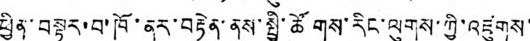ཕྱིན་བསྟར་བ་ཁོ་ནར་བརྟེན་ནས་སྤྱི་ཚོགས་རིང་ལུགས་ཀྱི་འཛུགས་
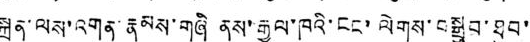སྐྲུན་ལས་འགན་རྣམས་གཞི ནས་རྒྱལ་ཁའི་ངང་ལེགས་བསྒྲུབ་ཐུབ་
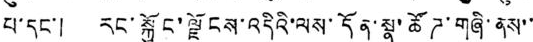པ་དང་། རང་སྐྱོང་ལྗོངས་འདིའི་ལས་དོན་སྣ་ཚོཊ་གཞི་ནས་་
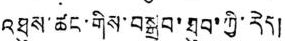འཐུས་ཚང་གིས་བསྒྲུབ་ཐུབ་ཀྱི་རེད།
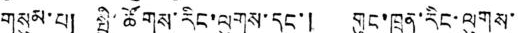གསུམ་པ། སྤྱི་ཚོགས་རིང་ལུགས་དང་། གུང་ཁྲན་རིང་ལུགས་
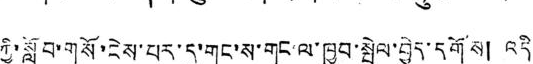ཀྱི་སློབ་གསོ་ངེས་པར་དུ་གང་ས་གང་ལ་ཁྱབ་སྤེལ་བྱེད་དགོས། འདི
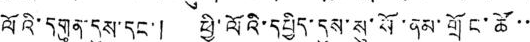ལོའི་དགུན་དུས་དང་། ཕྱི་ལོའི་དཔྱིད་དུས་སུ་སོ་ནམ་གྲོང་ཚོ་་
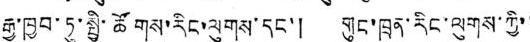རྒྱ་ཁྱབ་ཏུ་སྤྱི་ཚོགས་རིང་ལུགས་དང་། གུང་ཁྲན་རིང་ལུགས་ཀྱི་་
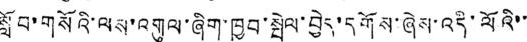སློབ་གསོའི་ལས་འགུལ་ཞིག་ཁྱབ་སྤེལ་བྱེད་དགོས་ཞེས་འདི་ལོའི་་
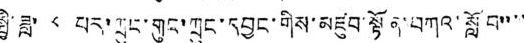སྤྱི་ཟླ་ ༨ པར་ཀྲུང་གུང་ཀྲུང་དབྱང་གིས་མཛུབ་སྟོན་བཀའ་སློབ་་་་
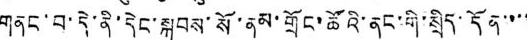གནང་བ་དེ་ནི་དེང་སྐབས་སོ་ནམ་གྲོང་ཚོའི་ནང་གི་སྲིད་དོན་་་་
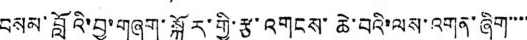བསམ་བློའི་བྱ་གཞག་སྐོར་གྱི་རྩ་འགངས་ཆེ་བའི་ལས་འགན་ཞིག་་་་
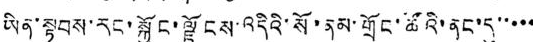ཡིན་སྟབས་རང་སྐྱོང་ལྗོངས་འདིའི་སོ་ནམ་གྲོང་ཚོའི་ནང་དུ་་་་་
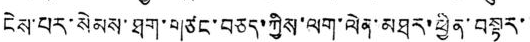ངེས་པར་སེམས་ཐག་གཙང་བཅད་ཀྱིས་ལག་ལེན་མཐར་ཕྱིན་བསྟར་་
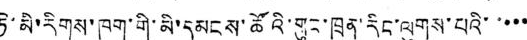ཏེ་མི་རིགས་ཁག་གི་མི་དམངས་ཚོའི་གུང་ཁྲན་རིང་ལུགས་པའི་་་་་
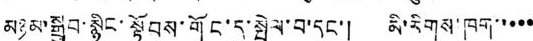མཉམ་སྒྲུབ་སྙིང་སྟོབས་གོང་དུ་སྤེལ་བ་དང་། མི་རིགས་ཁག་་་་་
